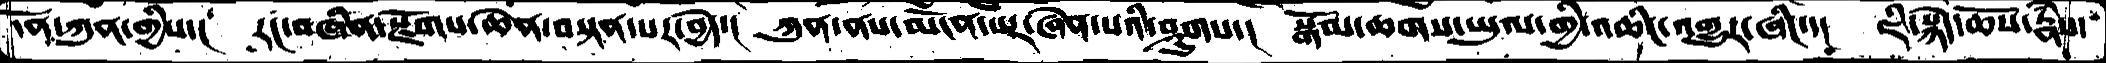དོན་ཀུན་གྱིས་།  རང་བཞིན་སྫོགས་ཆེན་བསྟན་པར་བྱེད་།  ཀུན་ནས་མངོན་པར་ཞེན་པའི་ཤུགས་།  སྒོམ་ཆགས་ཡུལ་གྱི་འཆིང་འགྱུར་ཞིང་་།  ཇི་སྙེད་ཆོས་རྣཾས་
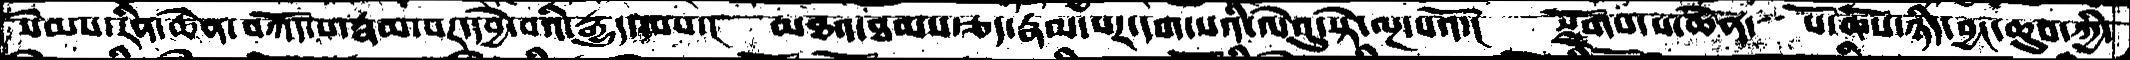སེམས་རིན་ཆེན་བཀོད་པ་རྣམ་པར་དབྱེ་བའི་རྒྱུད་ལས་།  མཐའ་ཐམས་ཅད་རྣམ་པར་དག་པའི་ལེའུ་སྟེ་ལྔ་པའོ་།  སྫོགས་པ་ཆེན་པོ་  ཆོས་ཉིད་བྱང་ཆུབ་ཀྱི་
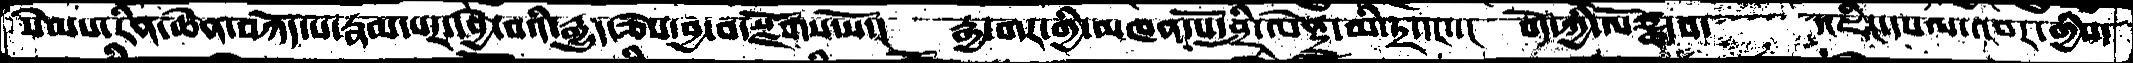སེམས་རིན་ཆེན་བཀོད་པ་རྣམ་པར་བྱེ་བའི་རྒྱུད་ཅེས་བྱ་བ་སྫོགས་སོ་།   རྒྱ་གར་གྱི་མཁན་པོ་ཤྲི་ལནྡྲེ་མི་ཏྲ་དང་་།  བོད་ཀྱི་ལོཙྪ་བ་   འཇིང་དཔལ་འབར་གྱིས་
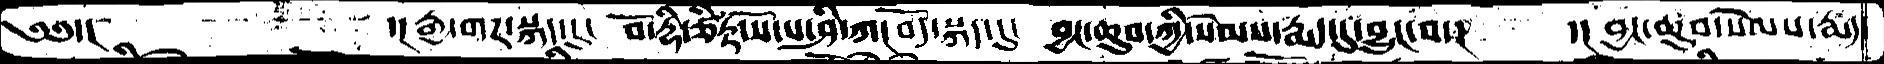༄༅་།       ་།རྒྱ་གར་སྐད་དུ།  བོ་རྡི་ཙིཏྟ་སོ་པ་ཤི་ཀ། བོད་སྐད་དུ་   བྱང་ཆུབ་ཀྱི་སེམས་རྨད་དུ་བྱུང་བ་།    ་། བྱང་ཆུབ་སེམས་རྨད་
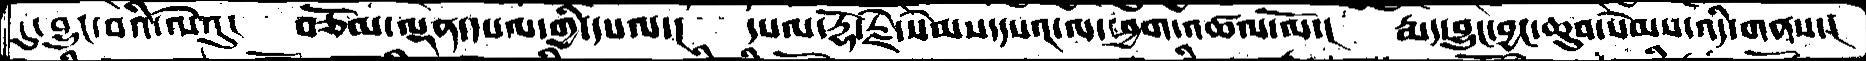དུ་བྱུང་བའི་ལེའུ་  བཅོམ་ལྡན་དཔལ་གྱི་དཔལ་།  དཔལ་རྡོ་རྗེ་སེམས་དཔའ་ལ་ཕྱག་འཚལ་ལོ་།  རྨད་བྱུང་བྱང་ཆུབ་སེམས་འདི་གནས་།
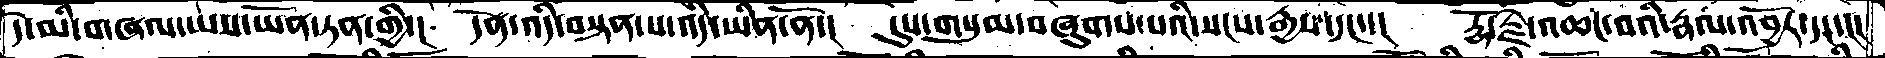དེ་མི་གཞལ་ཡས་ཡོན་ཏན་གྱི་།  དོན་འདི་བསྟན་པ་འདི་ཡིན་ནོ་།  དུས་གསུམ་བཞུགས་པའི་སངས་རྒྱས་དང་།  རྡོ་རྗེ་འཆང་བའི་རྣལ་འབྱོར་དང་།།།
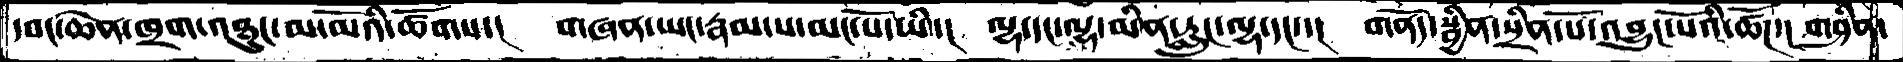དབང་ཆེན་ཁྲག་འཐུང་མ་མོའི་ཚོགས་།  གཞན་ཡང་རྣམ་པ་མང་པོ་ཡི་།  ལྷ་དང་ལྷ་མིན་རླུང་ལྷ་དང་།  གནོད་སྦྱིན་སྲིན་པོ་འབྱུང་པོའི་ཚོཌ་།  གཤིན་
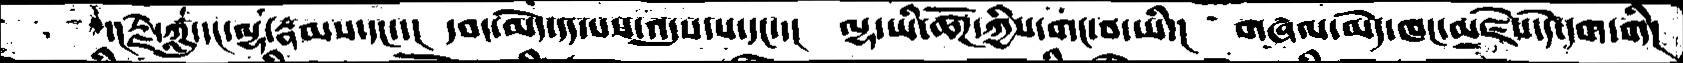་།རྗེ་ཀླུ་དང་ལྷ་རྣམས་དང་།  དབང་མེད་དད་པས་འདུས་པ་དང་།  ལྷ་ཡི་ཚོཌ་ཀྱིས་གང་བ་ཡི་།  གཞལ་མེད་ཁང་མཛེས་དེ་དག་གི།
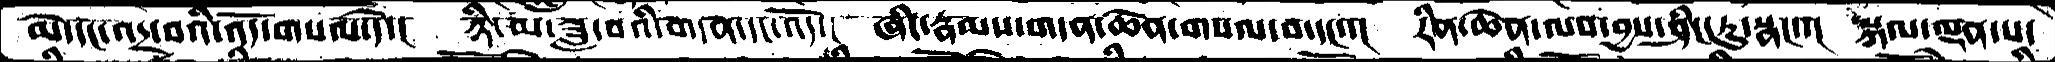མེ་དང་འདྲ་བའི་འོད་གསལ་དེ་།  ཉི་མ་ཟླ་བའི་གདན་དང་འོད་།  ཞིང་རྣམས་གདན་ཆེན་གསལ་བ་དང་་།  རིན་ཆེན་ལས་བྱས་ཤིང་ཏུ་སྣང་་།  སྐལ་ལྡན་པ་
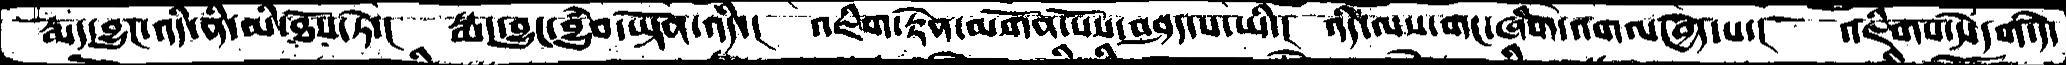རྨད་བྱུང་འདི་ནི་མི་ཐོས་ཏེ་།   རྨད་བྱུང་བྱུཾབ་ཡྟོན་འདི་།  འཇིག་རྟེན་མགོན་པོས་བཤད་པ་ཡི་།   འདི་ལས་གང་ཞིག་འགལ་བྱེད་པ་།  འཇིགས་དེ་དག་དེ་
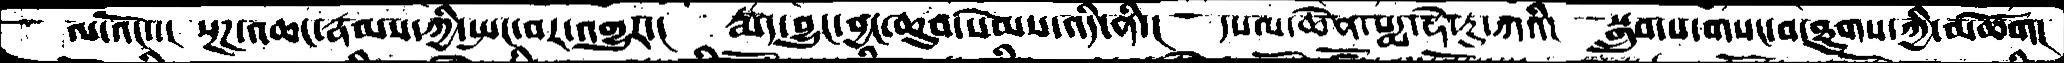ལ་འོང་་།  སྔཌ་འཆང་རྣམས་ཀྱི་སྤང་བར་འགྱུར་།  རྨད་བྱུང་བྱང་ཆུབ་སེམས་འདི་ནི་།  དཔལ་ཆེན་པདྨ་ཧེ་རུ་ཀའི་།  སྒྲུབ་པ་གསང་བ་ཐུགས་ཀྱི་མཆོག།
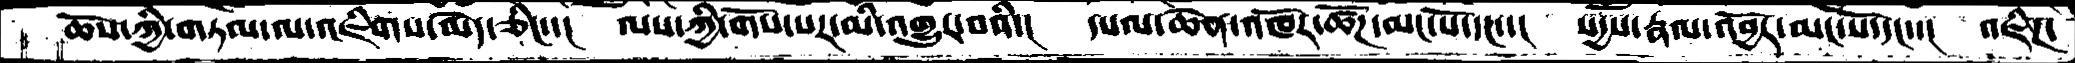ཆོས་ཀྱི་གཏམ་ལ་འཇིགས་མེད་ཅིང་་།    ལས་ཀྱི་གོས་པར་མི་འགྱུར་བའི་།   དཔལ་ཆེན་འཁོར་ཚོཌ་མང་པོ་དང་་།   སདྱས་རྣལ་འབྱོར་མང་པོ་དང་་།  འཇིཌ་
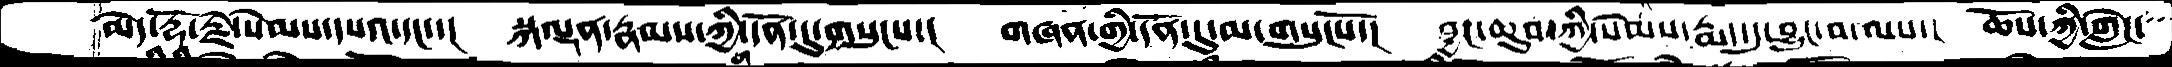མེད་རྡོ་རྗེ་སེམས་དཔའ་དང་།  སྐལྡན་རྣམས་ཀྱི་དོན་དུ་གསུངས་།  གཞན་གྱི་དོན་དུ་མ་གསུངསོ་།  བྱང་ཆུབ་ཀྱི་སེམས་རྨད་དུ་བྱུང་བ་ལས་།  ཆོས་ཀྱི་གླེང་
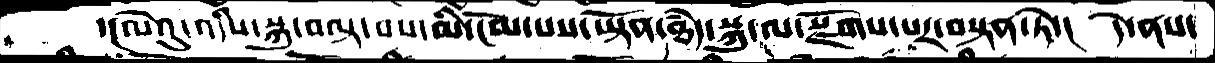་ལེའུ་འདིས་སྐུ་བལྟ་བས་མི་ངོམས་པས་ཡྟོན་ཐཾད་སྐུ་ལ་སྫོགས་པར་བསྟན་ཏེ་།  དེ་ནས་
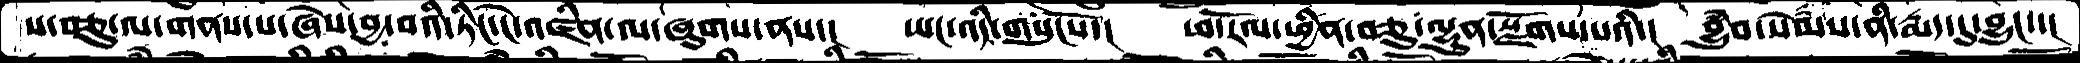ས་བཅུ་ལ་གནས་པ་ཞེས་བྱ་བའི་ཏིང་ངེ་འཛིན་ལ་ཞུགས་ནས་།  ཡང་འདི་གསུངསོ་།  ཕ་རོལ་ཕྱིན་བཅུ་ལྷུན་སྫོགས་པའི་།  བྱུཾབ་སེམས་ནི་རྨད་དུ་བྱུང་་།
